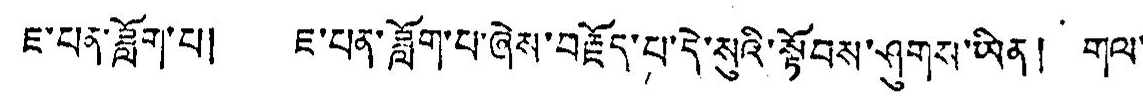ཇ་པན་ཟློག་པ། ཇ་པན་ཟློག་པ་ཞེས་བརྗོད་པ་དེ་སུའི་སྟོབས་ཤུགས་ཡིན། གལ་
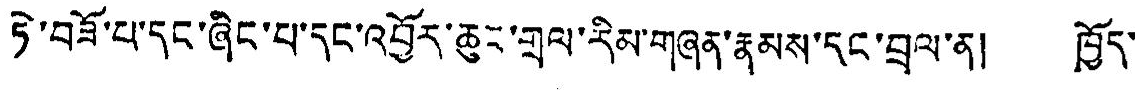ཏེ་བཟོ་པ་དང་ཞིང་པ་དང་འབྱོར་ཆུང་གྲལ་རིམ་གཞན་རྣམས་དང་བྲལ་ན། ཁྱོད་
